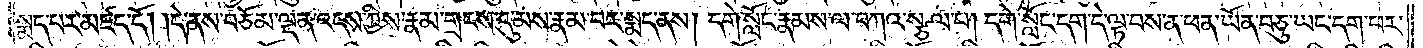སྨད་པར་མཛད་དོ། །དེ་ནས་བཅོམ་ལྡན་འདས་ཀྱིས་རྣམ་གྲངས་དུ་མས་རྣམ་པར་སྨད་ནས། དགེ་སློང་རྣམས་ལ་བཀའ་སྩལ་པ། དགེ་སློང་དག་དེ་ལྟ་བས་ན་ཕན་ཡོན་བཅུ་ཡང་དག་པར་
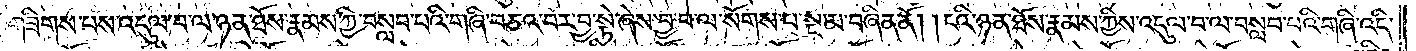གཟིགས་པས་འདུལ་བ་ལ་ཉན་ཐོས་རྣམས་ཀྱི་བསླབ་པའི་གཞི་བཅའ་བར་བྱ་སྟེ་ཞེས་བྱ་བ་ལ་སོགས་པ་སྔ་མ་བཞིན་ནོ། །ངའི་ཉན་ཐོས་རྣམས་ཀྱིས་འདུལ་བ་ལ་བསླབ་པའི་གཞི་འདི་
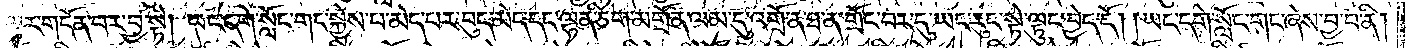ལྟར་གདོན་པར་བྱ་སྟེ། ཡང་དགེ་སློང་གང་སྐྱེས་པ་མེད་པར་བུད་མེད་དང་ལྷན་ཅིག་མགྲོན་ལམ་དུ་འགྲོ་ན་ཐ་ན་གྲོང་བར་དུ་ཡང་རུང་སྟེ་ལྟུང་བྱེད་དོ། །ཡང་དགེ་སློང་གང་ཞེས་བྱ་བ་ནི།
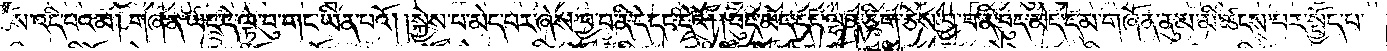ཆོས་འདི་པའམ། གཞན་ཡང་དེ་ལྟ་བུ་གང་ཡིན་པའོ། །སྐྱེས་པ་མེད་པར་ཞེས་བྱ་བ་ནི་དེ་དང་དེའོ། །བུད་མེད་དང་ལྷན་ཅིག་ཅེས་བྱ་བ་ནི་བུད་མེད་དམ་གཞོན་ནུ་མ་མི་ཚངས་པར་སྤྱོད་པ་
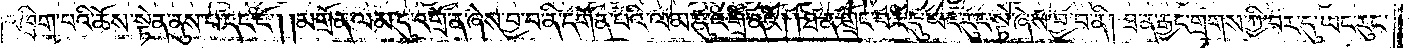འཁྲིག་པའི་ཆོས་སྟེན་ནུས་པ་དང་ངོ༌། །མགྲོན་ལམ་དུ་འགྲོ་ན་ཞེས་བྱ་བ་ནི་དགོན་པའི་ལམ་དུ་འགྲོ་ནའོ། །ཐ་ན་གྲོང་བར་དུ་ཡང་རུང་སྟེ་ཞེས་བྱ་བ་ནི། ཐ་ན་རྒྱང་གྲགས་ཀྱི་བར་དུ་ཡང་རུང་
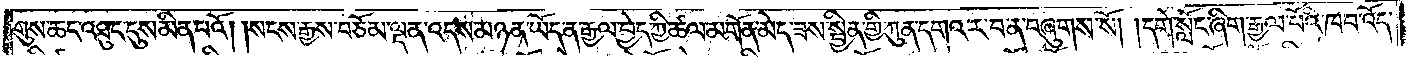གུས་ཆང་འཐུང་དུས་མིན་པའོ།    །སངས་རྒྱས་བཅོམ་ལྡན་འདས་མཉན་ཡོད་ན་རྒྱལ་བྱེད་ཀྱི་ཚལ་མགོན་མེད་ཟས་སྦྱིན་གྱི་ཀུན་དགའ་ར་བ་ན་བཞུགས་སོ། །དགེ་སློང་ཞིག་རྒྱལ་པོའི་ཁབ་འོད་
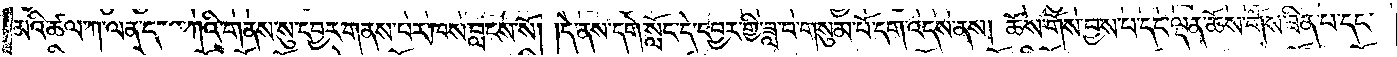མའི་ཚལ་ཀ་ལན་ད་  ཀའི་གནས་སུ་དབྱར་གནས་པར་ཁས་བླངས་སོ། །དེ་ནས་དགེ་སློང་དེ་དབྱར་གྱི་ཟླ་བ་གསུམ་པོ་དག་འདས་ནས། ཆོས་གོས་བྱས་པ་དང་ལྡན་ཆོས་གོས་ཟིན་པ་དང་
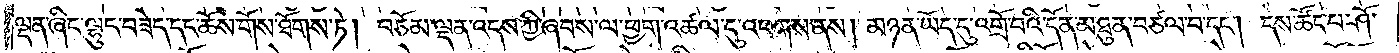ལྡན་ཞིང་ལྷུང་བཟེད་དང་ཆོས་གོས་ཐོགས་ཏེ། བཅོམ་ལྡན་འདས་ཀྱི་ཞབས་ལ་ཕྱག་འཚལ་དུ་འཕགས་ནས། མཉན་ཡོད་དུ་འགྲོ་བའི་དོན་མཐུན་བཙལ་བ་དང༌། དེས་ཚོང་པ་ཤོ་
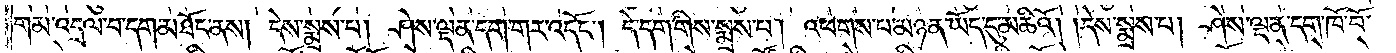གམ་འདྲལ་བ་དག་མཐོང་ནས། དེས་སྨྲས་པ། ཤེས་ལྡན་དག་གར་འདོང༌། དེ་དག་གིས་སྨྲས་པ། འཕགས་པ་མཉན་ཡོད་དུ་མཆིའོ། །དེས་སྨྲས་པ། ཤེས་ལྡན་དག་ཁོ་བོ་
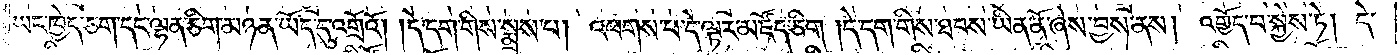ཡང་ཁྱེད་ཅག་དང་ལྷན་ཅིག་མཉན་ཡོད་དུ་འགྲོའོ། །དེ་དག་གིས་སྨྲས་པ། འཕགས་པ་དེ་ལྟར་མཛོད་ཅིག །དེ་དག་གིས་ཐབས་ཡིན་ནོ་ཞེས་བྱས་ནས། འགྱོད་པ་སྐྱེས་ཏེ། དེ་
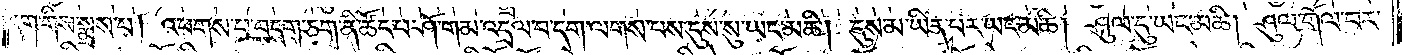དག་གིས་སྨྲས་པ། འཕགས་པ་བདག་ཅག་ནི་ཚོང་བ་ཤོ་གམ་འདྲལ་བ་དག་ལགས་པས་དུས་སུ་ཡང་མཆི། དུས་མ་ཡིན་པར་ཡང་མཆི། ཤུལ་དུ་ཡང་མཆི། ཤུལ་གོལ་བར་
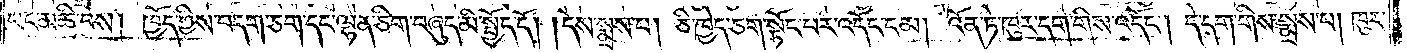ཡང་མཆི་བས། ཁྱོད་ཀྱིས་བདག་ཅག་དང་ལྷན་ཅིག་བཞུད་མི་སྤྱོད་དོ། །དེས་སྨྲས་པ། ཅི་ཁྱེད་ཅག་སྟོང་པར་འདོང་ངམ། འོན་ཏེ་ཁུར་དག་གིས་འདོང༌། དེ་དག་གིས་སྨྲས་པ། ཁུར་
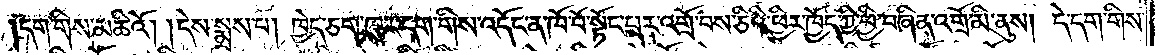དག་གིས་མཆིའོ། །དེས་སྨྲས་པ། ཁྱེད་ཅག་ཁུར་དག་གིས་འདོང་ན་ཁོ་བོ་སྟོང་པར་འགྲོ་བས་ཅིའི་ཕྱིར་ཁྱོད་ཀྱི་ཕྱི་བཞིན་འགྲོ་མི་ནུས། དེ་དག་གིས་
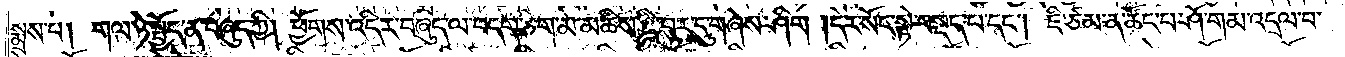སྨྲས་པ། གལ་ཏེ་སྤྱོད་ན་བཞུད་ཀྱི། ཕྱོགས་འདིར་བཞུད་ལ་བདག་ཅག་མ་མཆིས་ཀྱི་བར་དུ་གཞེས་ཤིག །དེར་སོང་སྟེ་བསྡད་པ་དང༌། ཇི་ཙམ་ན་ཚོང་པ་ཤོ་གམ་འདྲལ་བ་
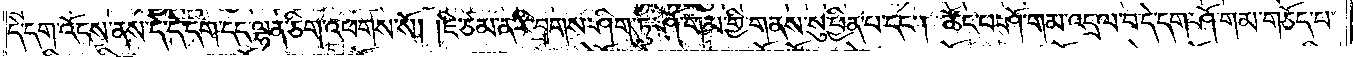དེ་དག་འོངས་ནས་དེ་དེ་དག་དང་ལྷན་ཅིག་འཕགས་སོ། །ཇི་ཙམ་ན་རི་བྲགས་ཤིག་ཏུ་ཤོ་གམ་གྱི་གནས་སུ་ཕྱིན་པ་དང༌། ཚོང་པ་ཤོ་གམ་འདྲལ་བ་དེ་དག་ཤོ་གམ་གཅོད་པ་
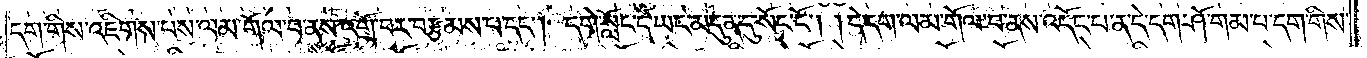དག་གིས་འཇིགས་པས་ལམ་གོལ་བ་ནས་འགྲོ་བར་བརྩམས་པ་དང༌། དགེ་སློང་དེ་ཡང་མདུན་དུ་སོང་ངོ༌། །དེ་དག་ལམ་གོལ་བ་ནས་འདོང་བ་ན་དེ་དག་ཤོ་གམ་པ་དག་གིས་
